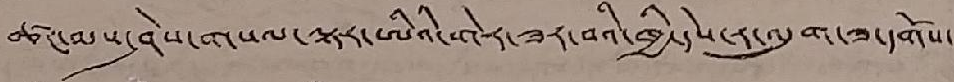ཚང་མས་ཤེས་གསལ་ལྟར་ཨིའི་གེར་ཟར་བའི་ཁྱི་དེས་ར་ལུག་ཟ་དགོས་
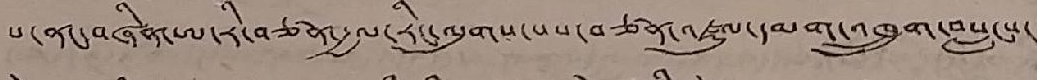པ་ནང་བཞིན་ཨ་རི་བཙན་རྒྱལ་རིང་ལུགས་པས་བཙན་འཛུལ་དམག་འཁྲུག་བསླངས་
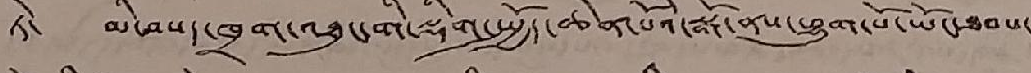ཏེ་ མི་བསད་ཁྲག་འཐུང་གི་ལྡིག་སྤྱོད་ཆེན་པོའི་སྒོ་ནས་ཕྱུག་པོ་ཡོང་ཐབས་
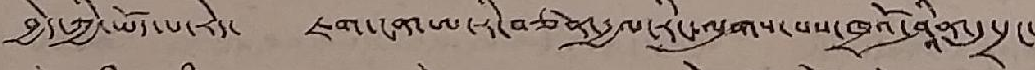བྱེད་ཀྱི་ཡོད་པ་རེད་ ཇག་ངན་ཨ་རི་བཙན་རྒྱལ་རིང་ལུགས་པས་ཁྲའོ་ཤཱིན་དུ་དྲང་
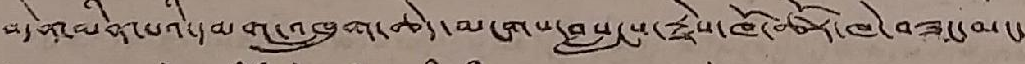བདེན་མིན་པའི་དམག་འཁྲུག་ཆེད་མངགས་བསླངས་རྗེས་ཁོ་ཚོར་ཁེ་བཟང་མང་
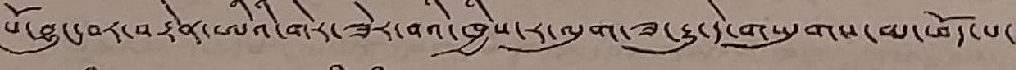པོ་བྱུང་བར་བརྟེན་ཨིའི་གེར་ཟེར་བའི་ཁྱི་ར་ལུག་ཟ་རྒྱུ་དེ་ག་ཡུགས་མ་ཕོད་པ་
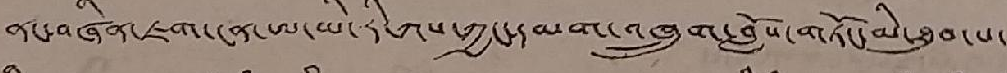ནང་བཞིན་ཇག་ངན་ཨ་རི་ཀས་ཀྱང་དམག་འཁྲུག་བློས་གཏོང་མི་ཐུབ་པ་
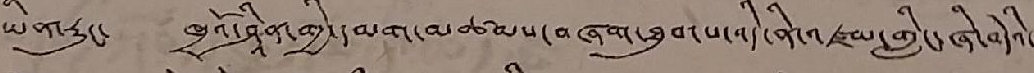ཡིན་རུང་ ཁྲའོ་ཤཱིན་གྱི་དམག་མཚམས་བཞག་ཐུབ་པ་འདི་ནི་འཛམ་གླིང་ཞི་བདེའི་
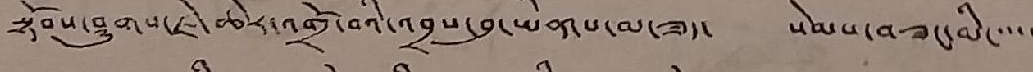སྟོབས་ཤུགས་ཇེ་ཆེར་འགྲོ་བའི་འབྲས་བུ་ཡིན་པ་མ་ཟད་ སེམས་བཟང་མི་་་་་
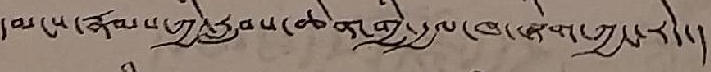དམངས་རྣམས་ཀྱི་རླབས་ཆེན་གྱི་རྒྱལ་ཁ་ཞིག་ཀྱང་རེད་།
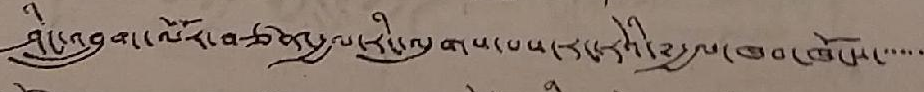ཤིང་འབྲུག་ལོར་བཙན་རྒྱལ་རིང་ལུགས་པས་རང་རེའི་རྒྱལ་ཁབ་ཁོངས་་་་་་་
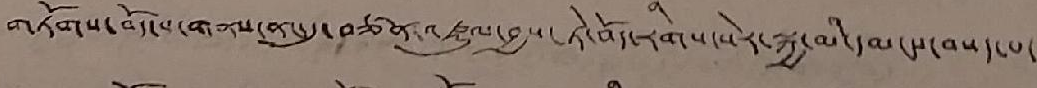གཏོགས་བོད་ས་གནས་ནང་དུ་བཙན་འཛུལ་བྱས་ཏེ་བོད་རིགས་སེར་སྐྱ་མི་དམངས་བསད་པ་
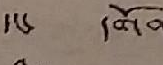དང་ དགོན་
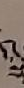སྡེ་
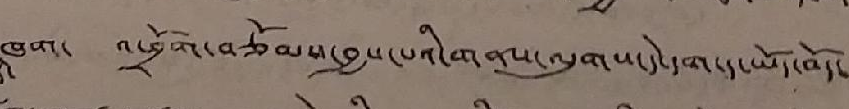ཁག་ འཕྲོག་བཅོམས་བྱས་པའི་གནས་ལུགས་དེ་དག་ད་ཡོད་བོད་
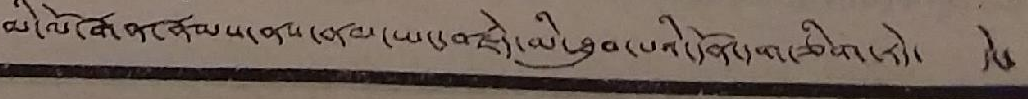མི་ལོ་རྒན་རྣམས་ནས་ཡང་བརྗེད་མི་ཐུབ་པའི་དོན་དག་ཅིག་རེད་ དེང་
